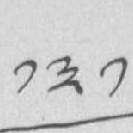༡༣༡
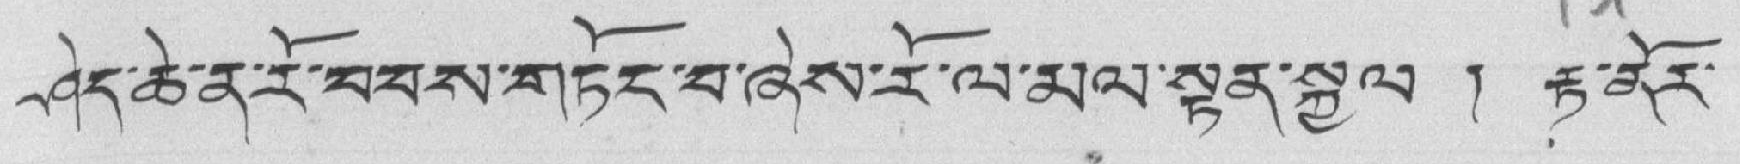ཤེད་ཆེ་ན་རོ་བབས་གཏོང་བ་ཞེས་རོ་ལ་མལ་སྟོན་སྐྱེལ ། རྟ་ནོར་
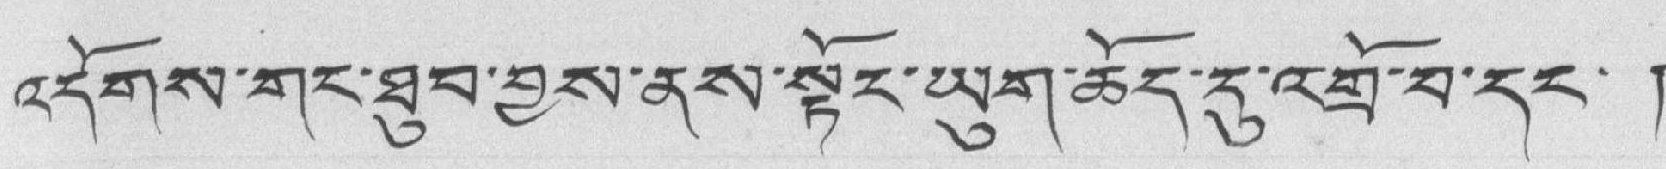འདོགས་གང་ཐུབ་བྱས་ནས་སྟོང་ཡུག་ཆོད་དུ་འགྲོ་བ་དང་ །
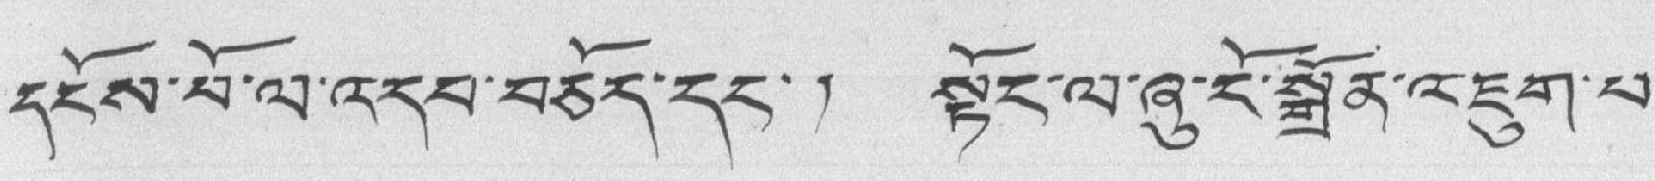དངོས་པོ་ལ་འདབ་བཅོད་དང་། སྟོང་ལ་ཞུ་ངོ་སྒྲོན་འཇུག་པ་
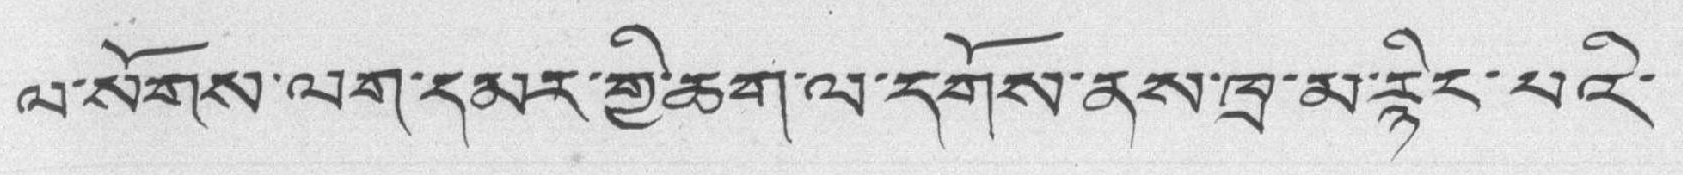ལ་སོགས་ལག་དམར་གྱི་ཆག་ལ་དགོས་ནས་ཁྲ་མ་རྙིང་པའི་
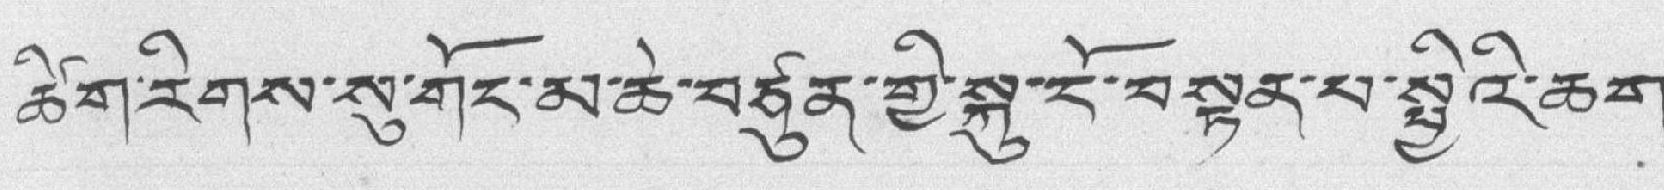ཚིག་རིགས་སུ་གོང་མ་ཆེ་བཙུན་གྱི་སྐུ་ངོ་བསྟན་པ་སྤྱིའི་ཆག་
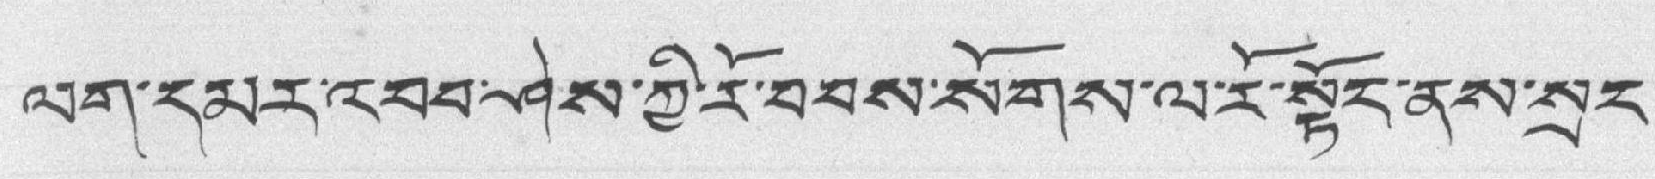ལག་དམར་འབབ་ཤེས་ཀྱི་རོ་བབས་སོགས་ལ་རོ་སྟོང་ནས་སྲང་
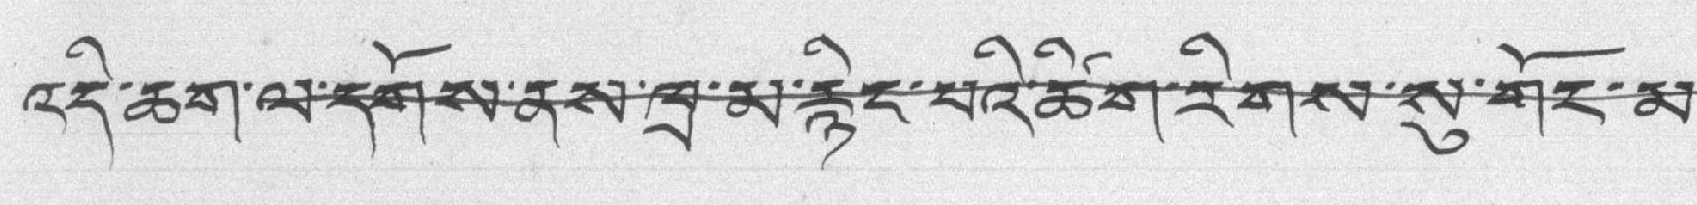འདི་ཆག་ལ་དགོས་ནས་ཁྲ་མ་རྙིང་པའི་ཚིག་རིགས་སུ་གོང་མ་
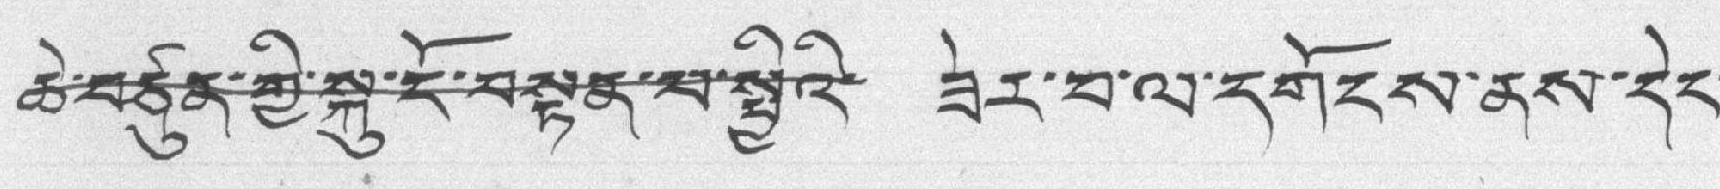ཆེ་བཙུན་གྱི་སྐུ་ངོ་བསྟན་པ་སྤྱིའི་ ཟེར་བ་ལ་དགོངས་ནས་དེང་
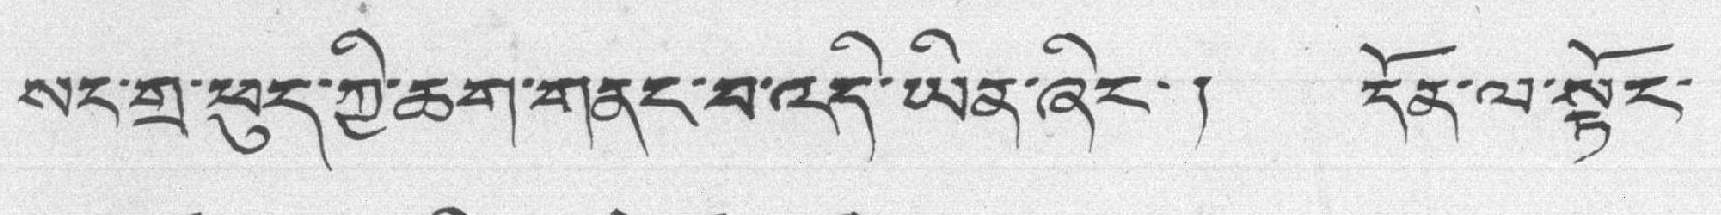སང་གྲ་ཕུད་ཀྱི་ཆག་གནང་བ་འདི་ཡིན་ཞིང་། དོན་ལ་སྟོང་
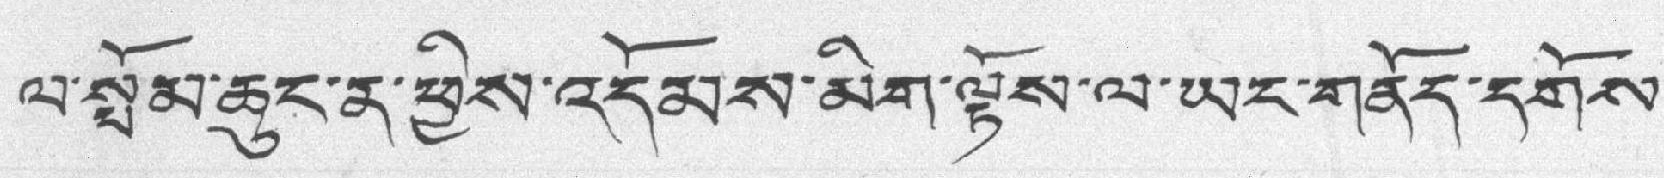ལ་སྤོམ་ཆུང་ན་ཕྱིས་འདོམས་མིག་ལྟོས་ལ་ཡང་གནོད་དགོས་
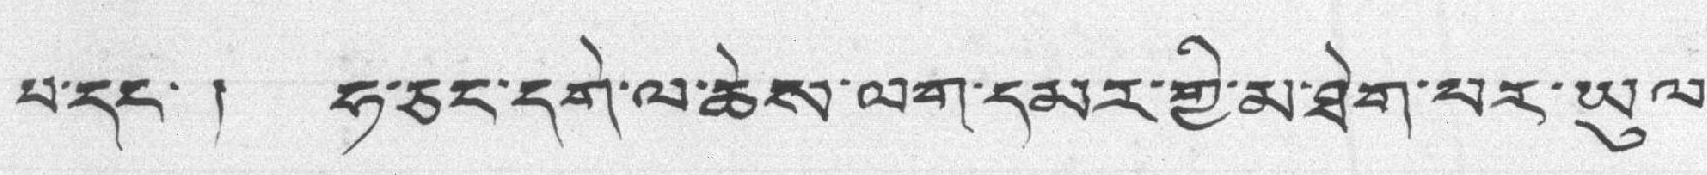པ་དང་། ཧ་ཅང་དགེ་ལ་ཆེས་ལག་དམར་གྱི་མ་ཐེག་པར་ཡུལ་
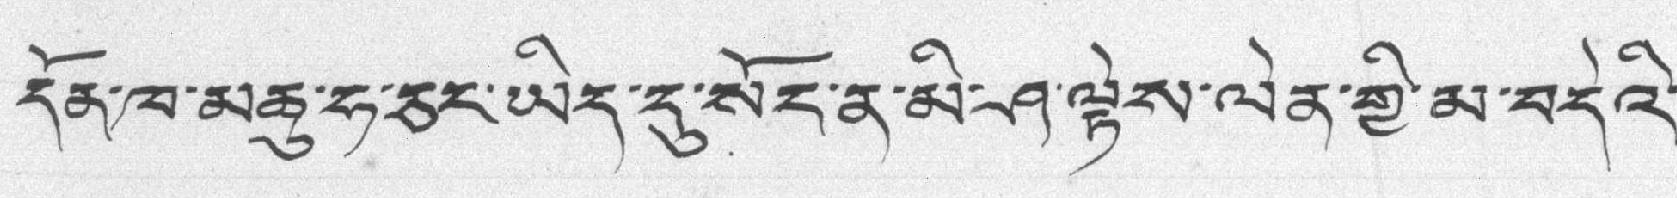དོན་ཁ་མཆུ་ཧ་ཅང་ཡིད་དུ་སོང་ན་མི་ཤ་ལྟེས་ལེན་གྱི་མ་བདེའི་
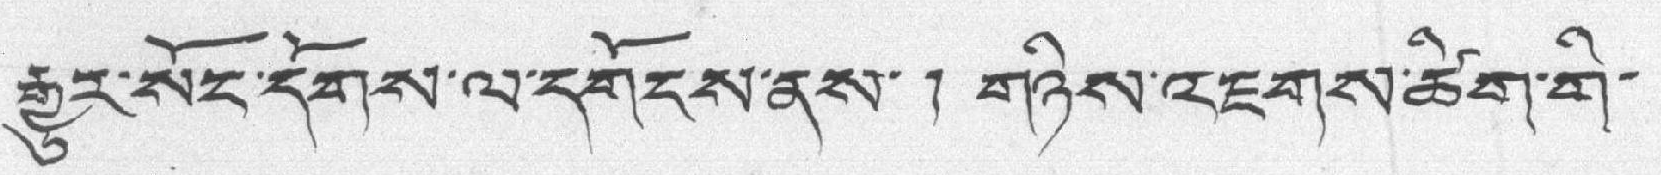རྒྱུར་སོང་དོགས་ལ་དགོངས་ནས་ ། གཉིས་འཇགས་ཚིག་གི་
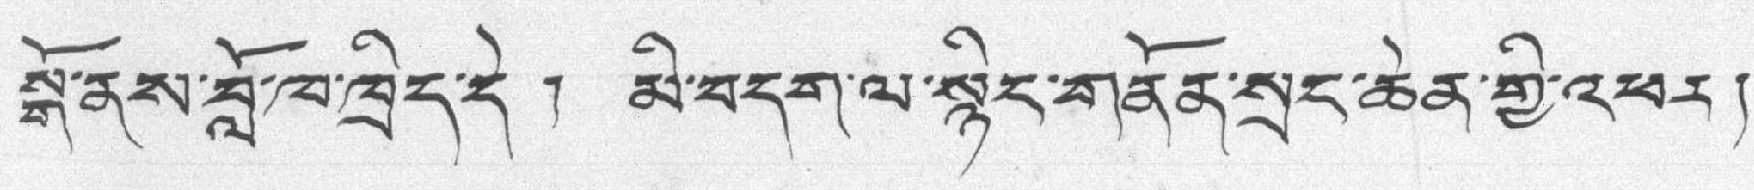སྒོ་ནས་བློ་ཁ་ཁྲིད་དེ ། མི་བདག་ལ་སྙིང་གནོན་སྲང་ཆེན་གྱི་འཕར།
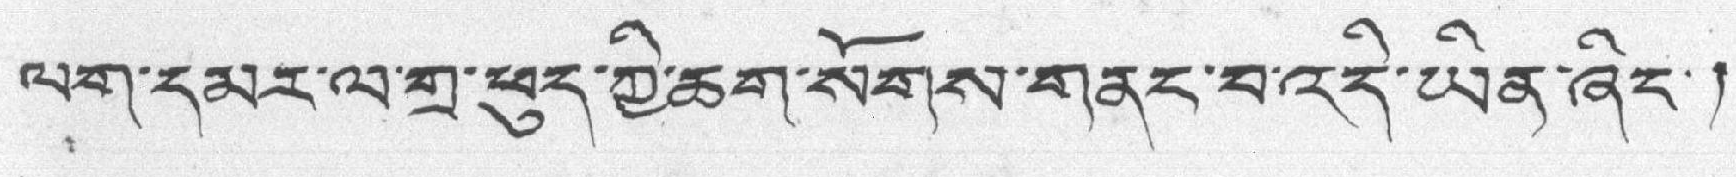ལག་དམར་ལ་གྲ་ཕུད་ཀྱི་ཆག་སོགས་གནང་བ་འདི་ཡིན་ཞིང་།
